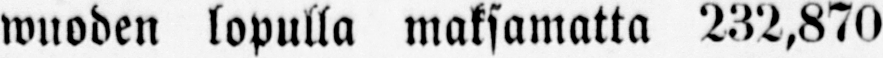wuoden lopulla maksamatta 232,870
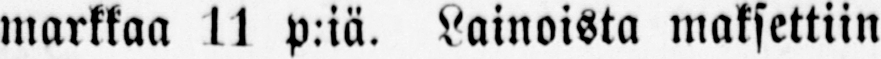markkaa 11 p:iä. Lainoista maksettiin
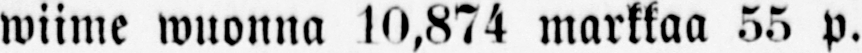wiime wuonna 10,874 markkaa 55 p.
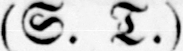(S. T.)
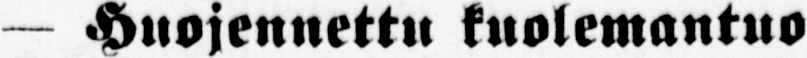— Huojennettu kuolemantuo-
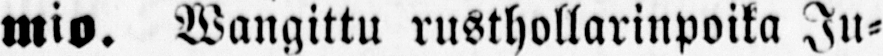mio. Wangittu rusthollarinpoika Ju-
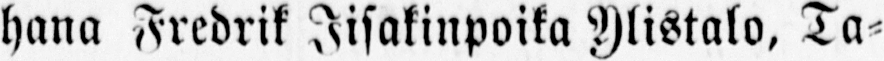hana Fredrik Iisakinpoika Ylistalo, Ta-
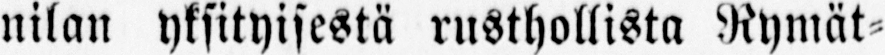nilan yksityisestä rusthollista Rymät-
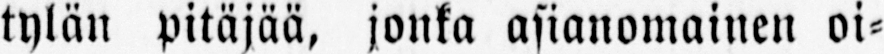tylän pitäjää, jonka asianomainen oi-
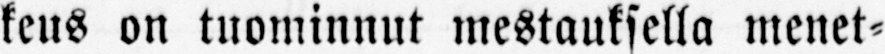keus on tuominnut mestauksella menet-
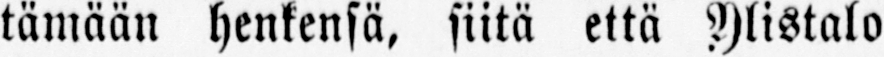tämään henkensä, siitä että Ylistalo
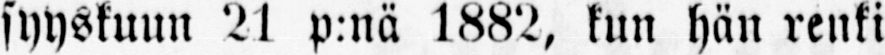syyskuun 21 p:nä 1882, kun hän renki
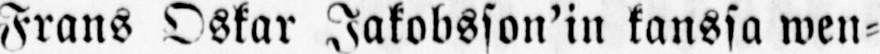Frans Oskar Jakobsson’in kanssa wen-
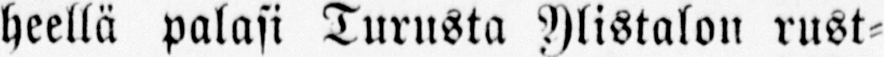heellä palasi Turusta Ylistalon rust-
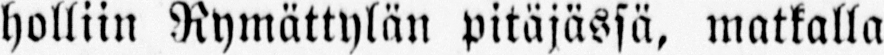holliin Rymättylän pitäjässä, matkalla
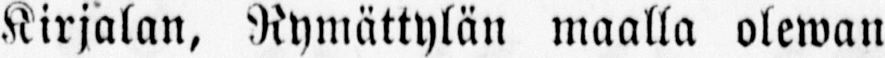Kirjalan, Rymättylän maalla olewan
